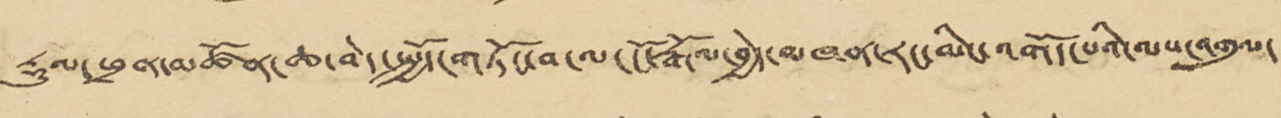རྡུལ་ཕྲན་མཚོན་ཆ་བེད་སྤྱོད་གཏོང་བ་ལ་ངོ་རྒོལ་བྱེད་མཁན་རང་མིང་འགོད་པའི་ལས་འགུལ་
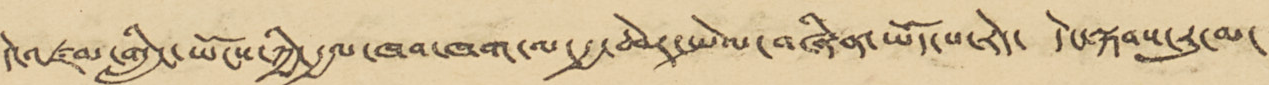དེ་འཛམ་གླིང་ཡོངས་ཀྱི་རྒྱལ་ཁབ་ཁག་ལ་རྒྱ་ཆེར་སྤེལ་བཞིན་ཡོད་པ་རེད་ དེང་སྐབས་རུ་མ་
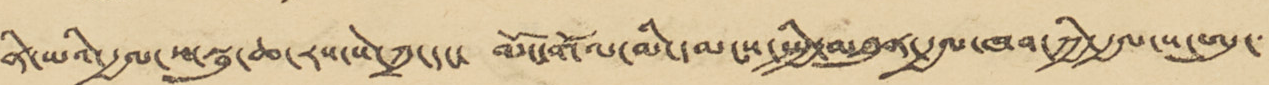ནི་ཡའི་རྒྱལ་ས་སྦུ་ཆ་རས་སེ་ཀྲ་དང་ མོང་གོལ་མི་དམངས་སྤྱི་མཐུན་རྒྱལ་ཁབ་ཀྱི་རྒྱལ་ས་ཨུ་་
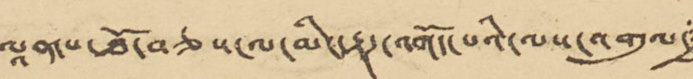ལཱན་པ་ཐོད་བཅས་ལ་མིང་རྟཊ་འགོད་པའི་ལས་འགུལ་
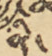ནི་
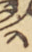༢
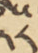༢༨
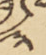༣
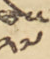༢༧
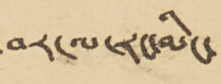བར་ལ་རང་མིང་
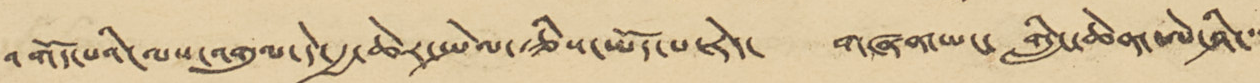འགོད་པའི་ལས་འགུལ་དེ་རྒྱ་ཆེར་སྤེལ་རྩིས་ཡོད་པ་རེད་ གཞན་ཡང་ གླིང་ཆེན་ཨེ་ཤི་་་
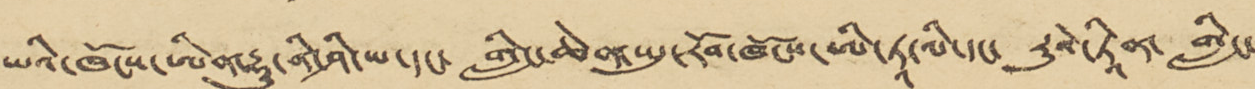ཡའི་ཁོངས་ཨིན་རྡུ་ནི་ཤི་ཡ་དང་ གླིང་ཆེན་ཡུ་རོབ་ཁོངས་ཨི་ཏཱ་ལི་དང་ རུའེ་ཏཱིན་ གླིང་
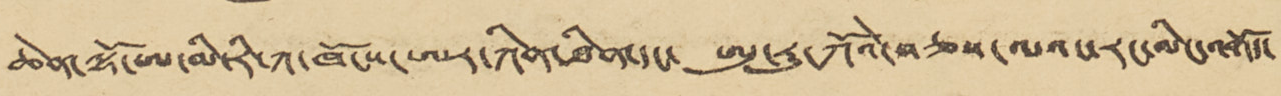ཆེན་ལྷོ་ཨ་མི་རི་ཀ་ཁོངས་ཨར་ཀིན་ཐིན་དང་ ཨུ་རུ་ཀོའེ་བཅས་ལའང་རང་མིང་འགོད་
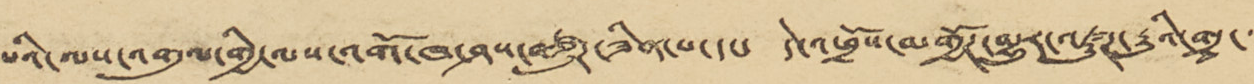པའི་ལས་འགུལ་གྱི་ལས་འགོ་ཁ་ཤས་བཙུཊ་ཟིན་པ་དང་ དེ་འཕྲོས་མགྱོཊ་མྱུར་འཛུཊ་རྒྱུའི་གྲྭ་་་
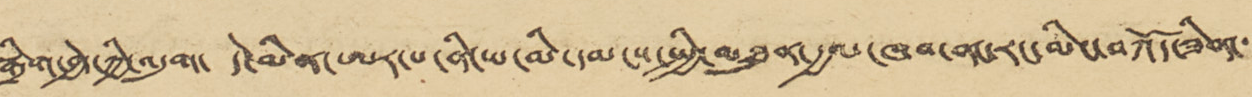སྒྲིག་བྱེད་ཀྱི་འདུག་ དེ་མིན་ཨར་པ་ནི་ཡ་མི་དམངས་སྤྱི་མཐུན་རྒྱལ་ཁབ་ནང་རང་མིང་བཀོད་ཟིན་་་
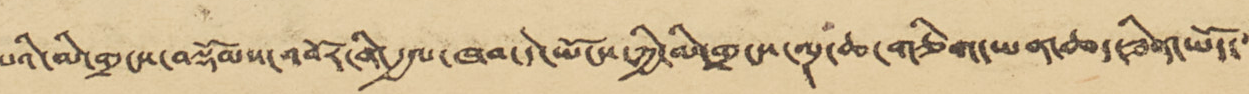པའི་མི་གྲངས་བསྡོམས་འབོར་གི་རྒྱལ་ཁབ་དེ་ཡོངས་ཀྱི་མི་གྲངས་ལྔ་ཆ་གཅིག་ཡན་ཆད་ཟིན་ཡོད་་་
